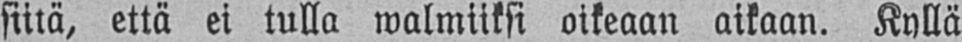siitä, että ei tulla walmiiksi oikeaan aikaan. Kyllä
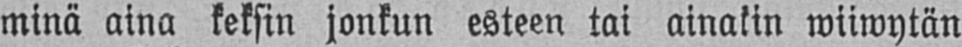minä aina keksin jonkun esteen tai ainakin wiiwytän
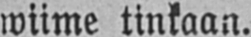wiime tinkaan.
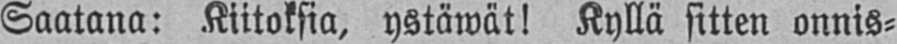Saatana: Kiitoksia, ystäwät! Kyllä sitten onnis-
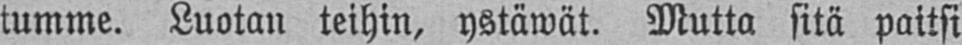tumme. Luotan teihin, ystäwät. Mutta sitä paitsi
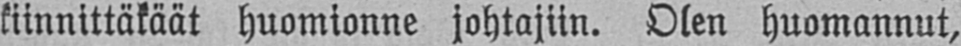kiinnittäkäät huomionne johtajiin. Olen huomannut,
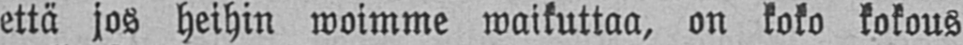että jos heihin woimme waikuttaa, on koko kokous
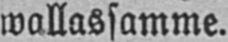wallassamme.
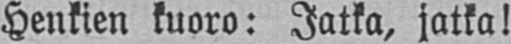Henkien kuoro: Jatka, jatka!
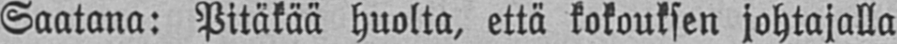Saatana: Pitäkää huolta, että kokouksen johtajalla
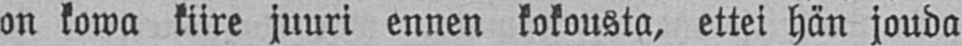on kowa kiire juuri ennen kokousta, ettei hän jouda
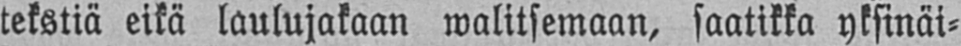tekstiä eikä laulujakaan walitsemaan, saatikka yksinäi-
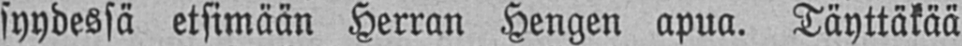syydessä etsimään Herran Hengen apua. Täyttäkää
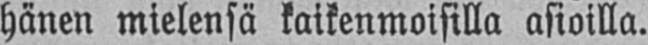hänen mielensä kaikenmoisilla asioilla.
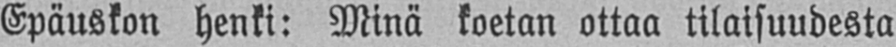Epäuskon henki: Minä koetan ottaa tilaisuudesta
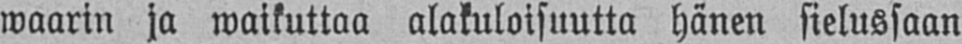wäärin ja waikuttaa alakuloisuutta hänen sielussaan
